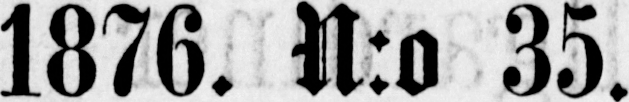1876. N:o 35.
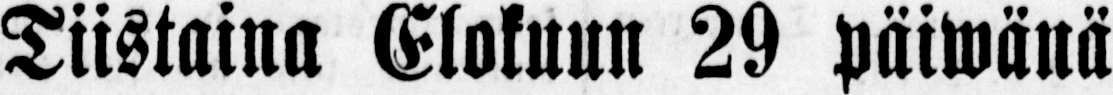Tiistaina Elokuun 29 päwänä
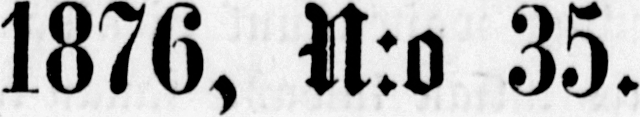1876, N:o 35.
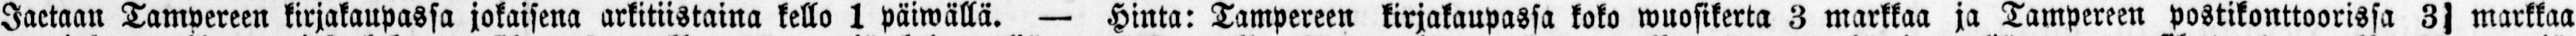Jaetaan Tampereen kirjakaupassa jokaisena arkitiistaina kello 1 päiwällä. — Hinta: Tampereen kirjakaupassa koko wuosikerta 3 markkaa ja Tampereen postikonttoorissa 31 markkaa
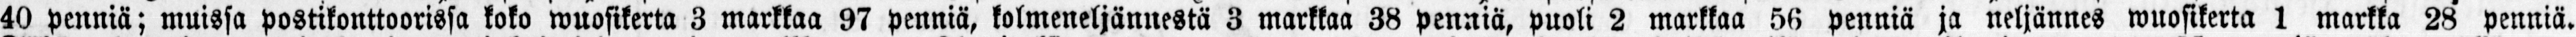40 penniä; muissa postikonttoorissa koko wuosikerta 3 markkaa 97 penniä, kolmeneljännestä 3 markkaa 38 penniä, puoli 2 markkaa 56 penniä ja neljännes wuosikerta 1 markka 28 penniä.
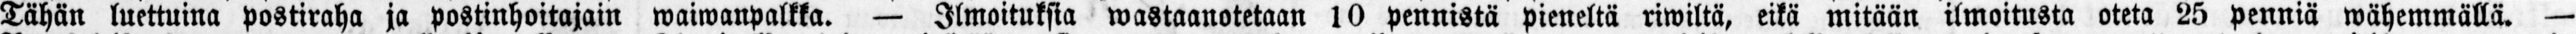Tähän luettuina postiraha ja postinhoitajain waiwanpalkka. — Ilmoituksia wastaanotetaan 10 pennistä pieneltä riwiltä, eikä mitään ilmoitusta oteta 25 penniä wähemmällä. —
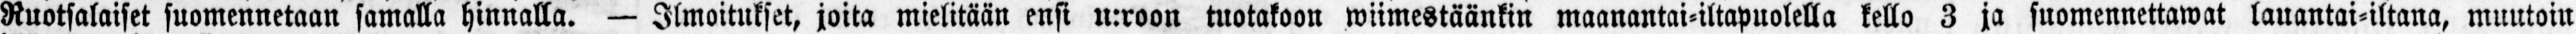Ruotsalaiset suomennetaan samalla hinnalla. — Ilmoitukset, joita mielitään ensi n:roon tuotakoon wiimestäänkin maanantai-iltapuolella kello 3 ja suomennettawat lauantai-iltana, muutoin
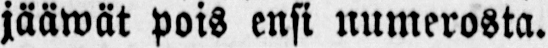jääwät pois ensi numerosta.
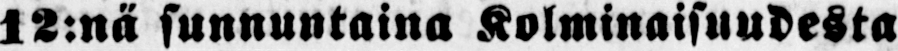12:nä sunnuntaina Kolminaisuudesta
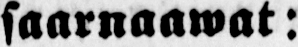saarnaawat:
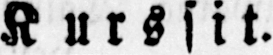Kurssit.
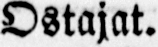Ostajat.
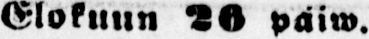Elokuun 26 päiw.
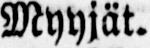Myyjät.
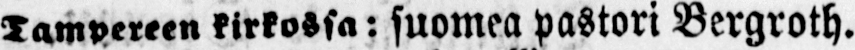Tampereen kirkossa: suomea pastori Bergroth.
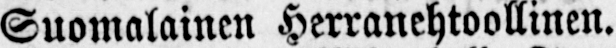Suomalainen Herranehtoollinen.
